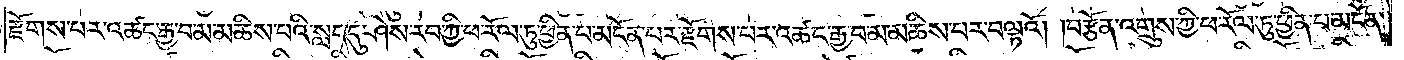རྫོགས་པར་འཚང་རྒྱ་བ་མ་མཆིས་པའི་སླད་དུ་ཤེས་རབ་ཀྱི་ཕ་རོལ་ཏུ་ཕྱིན་པ་མངོན་པར་རྫོགས་པར་འཚང་རྒྱ་བ་མ་མཆིས་པར་བལྟའོ། །བརྩོན་འགྲུས་ཀྱི་ཕ་རོལ་ཏུ་ཕྱིན་པ་མངོན་
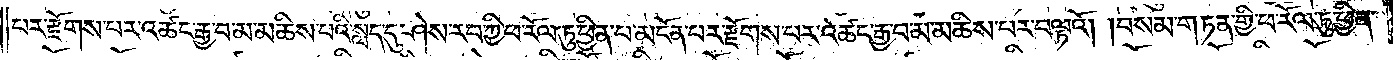པར་རྫོགས་པར་འཚང་རྒྱ་བ་མ་མཆིས་པའི་སླད་དུ་ཤེས་རབ་ཀྱི་ཕ་རོལ་ཏུ་ཕྱིན་པ་མངོན་པར་རྫོགས་པར་འཚང་རྒྱ་བ་མ་མཆིས་པར་བལྟའོ། །བསམ་གཏན་གྱི་ཕ་རོལ་ཏུ་ཕྱིན་
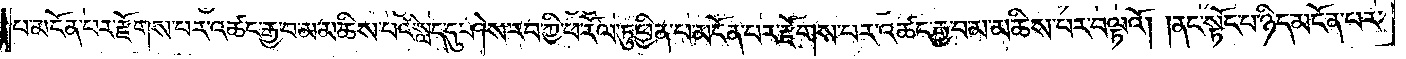པ་མངོན་པར་རྫོགས་པར་འཚང་རྒྱ་བ་མ་མཆིས་པའི་སླད་དུ་ཤེས་རབ་ཀྱི་ཕ་རོལ་ཏུ་ཕྱིན་པ་མངོན་པར་རྫོགས་པར་འཚང་རྒྱ་བ་མ་མཆིས་པར་བལྟའོ། །ནང་སྟོང་པ་ཉིད་མངོན་པར་
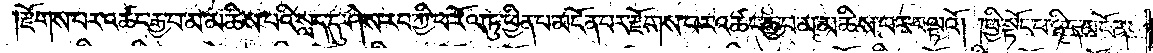རྫོགས་པར་འཚང་རྒྱ་བ་མ་མཆིས་བའི་སླད་དུ་ཤེས་རབ་ཀྱི་ཕ་རོལ་ཏུ་ཕྱིན་པ་མངོན་པར་རྫོགས་པར་འཚང་རྒྱ་བ་མ་མཆིས་པར་བལྟའོ། །ཕྱི་སྟོང་པ་ཉིད་མངོན་
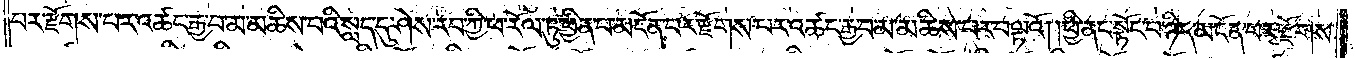པར་རྫོགས་པར་འཚང་རྒྱ་བ་མ་མཆིས་པའི་སླད་དུ་ཤེས་རབ་ཀྱི་ཕ་རོལ་ཏུ་ཕྱིན་པ་མངོན་པར་རྫོགས་པར་འཚང་རྒྱ་བ་མ་མཆིས་པར་བལྟའོ། །ཕྱི་ནང་སྟོང་པ་ཉིད་མངོན་པར་རྫོགས་
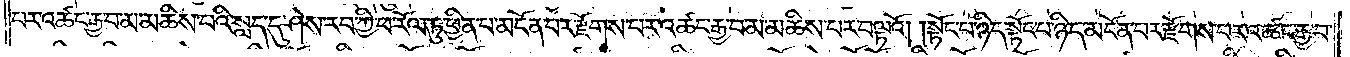པར་འཚང་རྒྱ་བ་མ་མཆིས་པའི་སླད་དུ་ཤེས་རབ་ཀྱི་ཕ་རོལ་ཏུ་ཕྱིན་པ་མངོན་པར་རྫོགས་པར་འཚང་རྒྱ་བ་མ་མཆིས་པར་བལྟའོ། །སྟོང་པ་ཉིད་སྟོང་པ་ཉིད་མངོན་པར་རྫོགས་པར་འཚང་རྒྱ་བ་
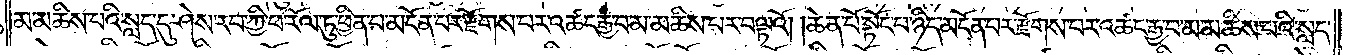མ་མཆིས་པའི་སླད་དུ་ཤེས་རབ་ཀྱི་ཕ་རོལ་ཏུ་ཕྱིན་པ་མངོན་པར་རྫོགས་པར་འཚང་རྒྱ་བ་མ་མཆིས་པར་བལྟའོ། །ཆེན་པོ་སྟོང་པ་ཉིད་མངོན་པར་རྫོགས་པར་འཚང་རྒྱ་བ་མ་མཆིས་པའི་སླད་
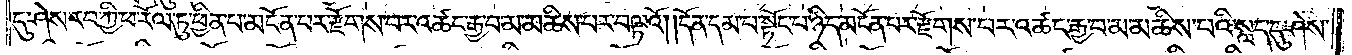དུ་ཤེས་རབ་ཀྱི་ཕ་རོལ་ཏུ་ཕྱིན་པ་མངོན་པར་རྫོགས་པར་འཚང་རྒྱ་བ་མ་མཆིས་པར་བལྟའོ། །དོན་དམ་པ་སྟོང་པ་ཉིད་མངོན་པར་རྫོགས་པར་འཚང་རྒྱ་བ་མ་མཆིས་པའི་སླད་དུ་ཤེས་
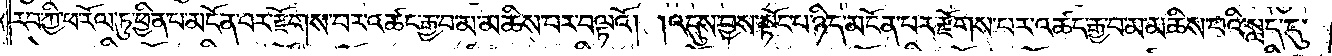རབ་ཀྱི་ཕ་རོལ་ཏུ་ཕྱིན་པ་མངོན་པར་རྫོགས་པར་འཚང་རྒྱ་བ་མ་མཆིས་པར་བལྟའོ། །འདུས་བྱས་སྟོང་པ་ཉིད་མངོན་པར་རྫོགས་པར་འཚང་རྒྱ་བ་མ་མཆིས་པའི་སླད་དུ་
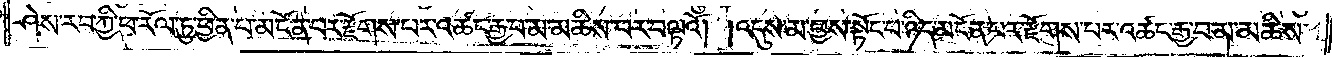ཤེས་རབ་ཀྱི་ཕ་རོལ་ཏུ་ཕྱིན་པ་མངོན་པར་རྫོགས་པར་འཚང་རྒྱ་བ་མ་མཆིས་པར་བལྟའོ། །འདུས་མ་བྱས་སྟོང་པ་ཉིད་མངོན་པར་རྫོགས་པར་འཚང་རྒྱ་བ་མ་མཆིས་
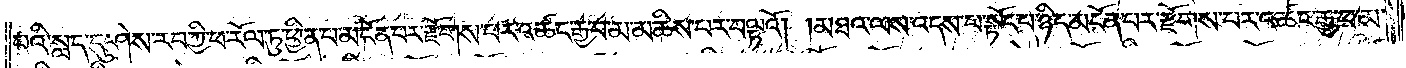པའི་སླད་དུ་ཤེས་རབ་ཀྱི་ཕ་རོལ་ཏུ་ཕྱིན་པ་མངོན་པར་རྫོགས་པར་འཚང་རྒྱ་བ་མ་མཆིས་པར་བལྟའོ། །མཐའ་ལས་འདས་པ་སྟོང་པ་ཉིད་མངོན་པར་རྫོགས་པར་འཚང་རྒྱ་བ་མ་
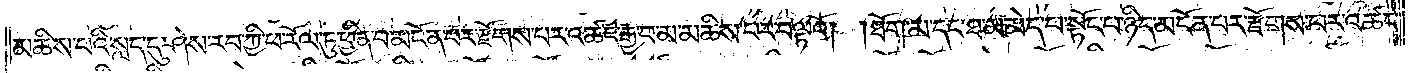མཆིས་པའི་སླད་དུ་ཤེས་རབ་ཀྱི་ཕ་རོལ་ཏུ་ཕྱིན་པ་མངོན་པར་རྫོགས་པར་འཚང་རྒྱ་བ་མ་མཆིས་པར་བལྟའོ། །ཐོག་མ་དང་ཐ་མ་མེད་པ་སྟོང་པ་ཉིད་མངོན་པར་རྫོགས་པར་འཚང་
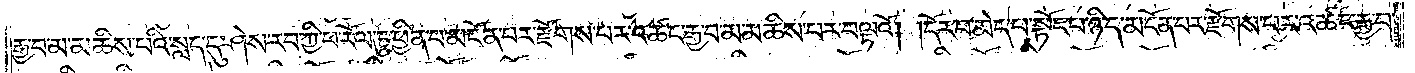རྒྱ་བ་མ་མཆིས་པའི་སླད་དུ་ཤེས་རབ་ཀྱི་ཕ་རོལ་ཏུ་ཕྱིན་པ་མངོན་པར་རྫོགས་པར་འཚང་རྒྱ་བ་མ་མཆིས་པར་བལྟའོ། །དོར་བ་མེད་པ་སྟོང་པ་ཉིད་མངོན་པར་རྫོགས་པར་འཚང་རྒྱ་བ་
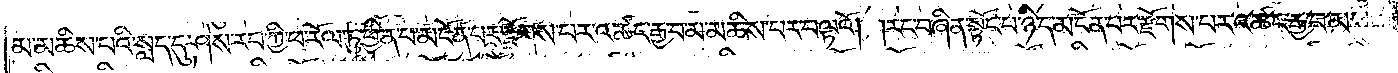མ་མཆིས་པའི་སླད་དུ་ཤེས་རབ་ཀྱི་ཕ་རོལ་ཏུ་ཕྱིན་པ་མངོན་པར་རྫོགས་པར་འཚང་རྒྱ་བ་མ་མཆིས་པར་བལྟའོ། །རང་བཞིན་སྟོང་པ་ཉིད་མངོན་པར་རྫོགས་པར་འཚང་རྒྱ་བ་མ་
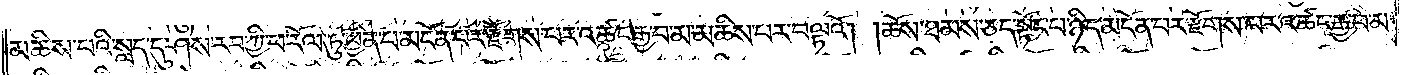མཆིས་པའི་སླད་དུ་ཤེས་རབ་ཀྱི་ཕ་རོལ་ཏུ་ཕྱིན་པ་མངོན་པར་རྫོགས་པར་འཚང་རྒྱ་བ་མ་མཆིས་པར་བལྟའོ། །ཆོས་ཐམས་ཅད་སྟོང་པ་ཉིད་མངོན་པར་རྫོགས་པར་འཚང་རྒྱ་བ་མ་
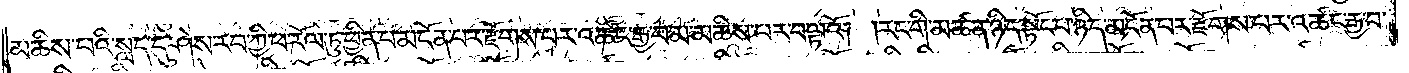མཆིས་པའི་སླད་དུ་ཤེས་རབ་ཀྱི་ཕ་རོལ་ཏུ་ཕྱིན་པ་མངོན་པར་རྫོགས་པར་འཚང་རྒྱ་བ་མ་མཆིས་པར་བལྟའོ། །རང་གི་མཚན་ཉིད་སྟོང་པ་ཉིད་མངོན་པར་རྫོགས་པར་འཚང་རྒྱ་བ་
